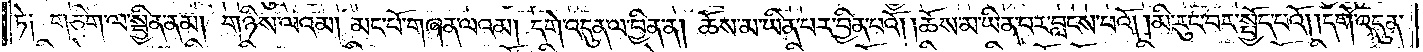ཏེ༑ གཅིག་ལ་སྦྱིན་ནམ། གཉིས་ལའམ། མང་པོ་གཞན་ལའམ། དགེ་འདུན་ལ་བྱིན་ན། ཆོས་མ་ཡིན་པར་བྱིན་པའོ། ཆོས་མ་ཡིན་པར་བླངས་པའོ། །མི་རུང་བར་སྤྱོད་པའོ། །དགེ་འདུན་
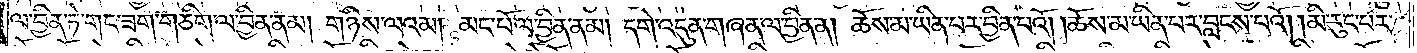ལ་བྱིན་ཏེ་གང་ཟག་གཅིག་ལ་བྱིན་ནམ། གཉིས་ལའམ། མང་པོ་ལ་བྱིན་ནམ། དགེ་འདུན་གཞན་ལ་བྱིན་ན། ཆོས་མ་ཡིན་པར་བྱིན་པའོ། །ཆོས་མ་ཡིན་པར་བླངས་པའོ། །མི་རུང་པར་
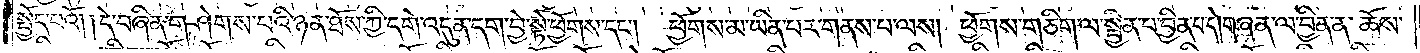སྤྱོད་པའོ། །དེ་བཞིན་གཤེགས་པའི་ཉན་ཐོས་ཀྱི་དགེ་འདུན་དག་བྱེ་སྟེ་ཕྱོགས་དང༌། ཕྱོགས་མ་ཡིན་པར་གནས་པ་ལས། ཕྱོགས་གཅིག་ལ་སྦྱིན་པ་བྱིན་པ་དེ། གཞན་ལ་བྱིན་ན་ཆོས་
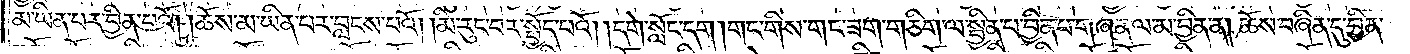མ་ཡིན་པར་བྱིན་པའོ། །ཆོས་མ་ཡིན་པར་བླངས་པའོ། །མི་རུང་བར་སྤྱོད་པའོ། །དགེ་སློང་དག །གང་གིས་གང་ཟག་གཅིག་ལ་སྦྱིན་པ་བྱིན་པ་གཞན་ལ་མ་བྱིན་ན། ཆོས་བཞིན་དུ་བྱིན་
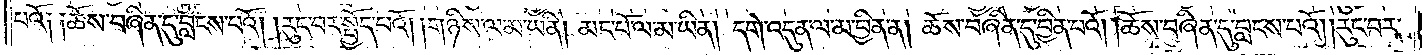པའོ༑ ༑ཆོས་བཞིན་དུ་བླངས་པའོ། །རུང་བར་སྤྱོད་པའོ། །གཉིས་ལ་མ་ཡིན། མང་པོ་ལ་མ་ཡིན། དགེ་འདུན་ལ་མ་བྱིན་ན། ཆོས་བཞིན་དུ་བྱིན་པའོ། །ཆོས་བཞིན་དུ་བླངས་པའོ། །རུང་བར་
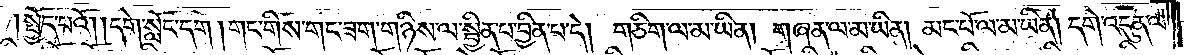སྤྱོད་པའོ། །དགེ་སློང་དག །གང་གིས་གང་ཟག་གཉིས་ལ་སྦྱིན་པ་བྱིན་པ་དེ། གཅིག་ལ་མ་ཡིན། གཞན་ལ་མ་ཡིན། མང་པོ་ལ་མ་ཡིན། དགེ་འདུན་ལ་
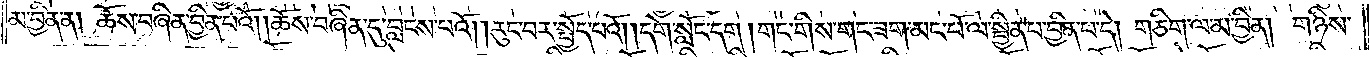མ་བྱིན་ན། ཆོས་བཞིན་བྱིན་པའོ། །ཆོས་བཞིན་དུ་བླངས་པའོ། །རུང་བར་སྤྱོད་པའོ། །དགེ་སློང་དག །གང་གིས་གང་ཟག་མང་པོ་ལ་སྦྱིན་པ་བྱིན་པ་དེ། གཅིག་ལ་མ་བྱིན། གཉིས་
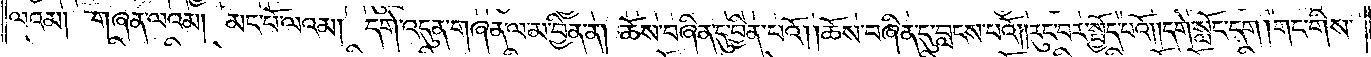ལའམ། གཞན་ལའམ། མང་པོ་ལའམ། དགེ་འདུན་གཞན་ལ་མ་བྱིན་ན། ཆོས་བཞིན་དུ་བྱིན་པའོ། །ཆོས་བཞིན་དུ་བླངས་པའོ། །རུང་བར་སྤྱོད་པའོ། །དགེ་སློང་དག །གང་གིས་
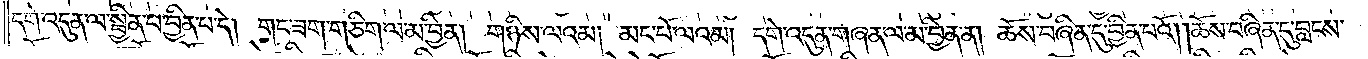དགེ་འདུན་ལ་སྦྱིན་པ་བྱིན་པ་དེ། གང་ཟག་གཅིག་ལ་མ་བྱིན། གཉིས་ལའམ། མང་པོ་ལའམ། དགེ་འདུན་གཞན་ལ་མ་བྱིན་ན། ཆོས་བཞིན་དུ་བྱིན་པའོ། །ཆོས་བཞིན་དུ་བླངས་
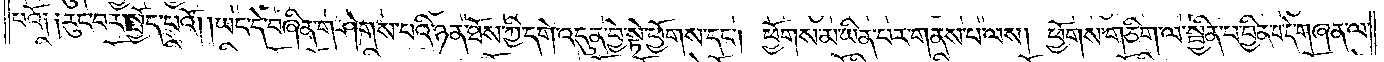པའོ༑ ༑རུང་བར་སྤྱོད་པའོ། །ཡང་དེ་བཞིན་གཤེགས་པའི་ཉན་ཐོས་ཀྱི་དགེ་འདུན་བྱེ་སྟེ་ཕྱོགས་དང༌། ཕྱོགས་མ་ཡིན་པར་གནས་པ་ལས། ཕྱོགས་གཅིག་ལ་སྦྱིན་པ་བྱིན་པ་དེ་གཞན་ལ་
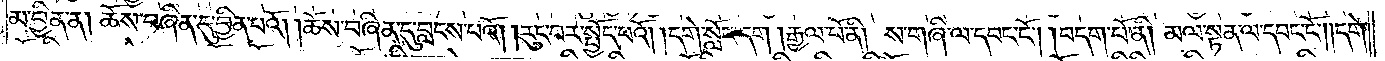མ་བྱིན་ན། ཆོས་བཞིན་དུ་བྱིན་པའོ། །ཆོས་བཞིན་དུ་བླངས་པའོ། །རུང་བར་སྤྱོད་པའོ། །དགེ་སློང་དག །རྒྱལ་པོ་ནི། ས་གཞི་ལ་དབང་ངོ༌། །བདག་པོ་ནི། མལ་སྟན་ལ་དབང་ངོ༌། །དགེ་
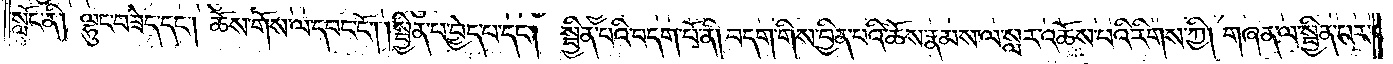སློང་ནི། ལྷུང་བཟེད་དང༌། ཆོས་གོས་ལ་དབང་ངོ༌། །སྦྱིན་པ་བྱེད་པ་དང༌། སྦྱིན་པའི་བདག་པོ་ནི། བདག་གིས་བྱིན་པའི་ཆོས་རྣམས་ལ་སླར་འཆོས་པའི་རིགས་ཀྱི། གཞན་ལ་སྦྱིན་པར་
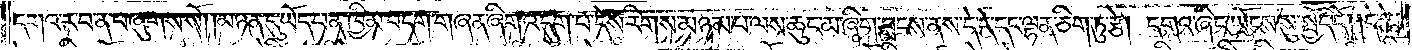དགའ་ར་བ་ན་བཞུགས་སོ། །མཉན་དུ་ཡོད་པ་ན་ཁྱིམ་བདག་གཞན་ཞིག་འདུག་པ་དེས་རིགས་མཉམ་པ་ལས་ཆུང་མ་ཞིག་བླངས་ནས་དེ་དེ་དང་ལྷན་ཅིག་ཏུ་རྩེ། དགའ་ཞིང་ཡོངས་སུ་སྤྱོད་དོ། །དེ་རྩེ་
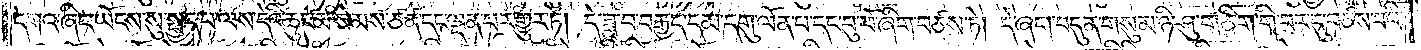དགའ་ཞིང་ཡོངས་སུ་སྤྱད་པ་ལས་དེའི་ཆུང་མ་སེམས་ཅན་དང་ལྡན་པར་གྱུར་ཏེ། དེ་ཟླ་བ་བརྒྱད་དམ་དགུ་ལོན་པ་དང་བུ་ཕོ་ཞིག་བཙས་ཏེ། དེ་ཞག་བདུན་གསུམ་ཉི་ཤུ་གཅིག་གི་བར་དུ་བཙས་པའི་
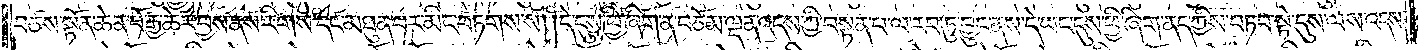བཙས་སྟོན་ཆེན་པོ་རྒྱ་ཆེར་བྱས་ནས་རིགས་དང་མཐུན་པར་མིང་བཏགས་སོ། །དེ་དུས་ཕྱི་ཞིག་ན་བཅོམ་ལྡན་འདས་ཀྱི་བསྟན་པ་ལ་རབ་ཏུ་བྱུང་ནས་དེ་ཡང་དུས་ཕྱི་ཞིག་ནད་ཀྱིས་བཏབ་སྟེ་དུས་ལས་འདས་
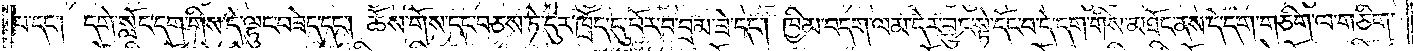པ་དང༌། དགེ་སློང་དག་གིས་དེ་ལྷུང་བཟེད་དང༌། ཆོས་གོས་དང་བཅས་ཏེ་དུར་ཁྲོད་དུ་བོར་བྲམ་ཟེ་དང༌། ཁྱིམ་བདག་ལམ་དེར་བྱུང་སྟེ་དོང་བ་དེ་དག་གིས་མཐོང་ནས་དེ་དག་གཅིག་ལ་གཅིག་
